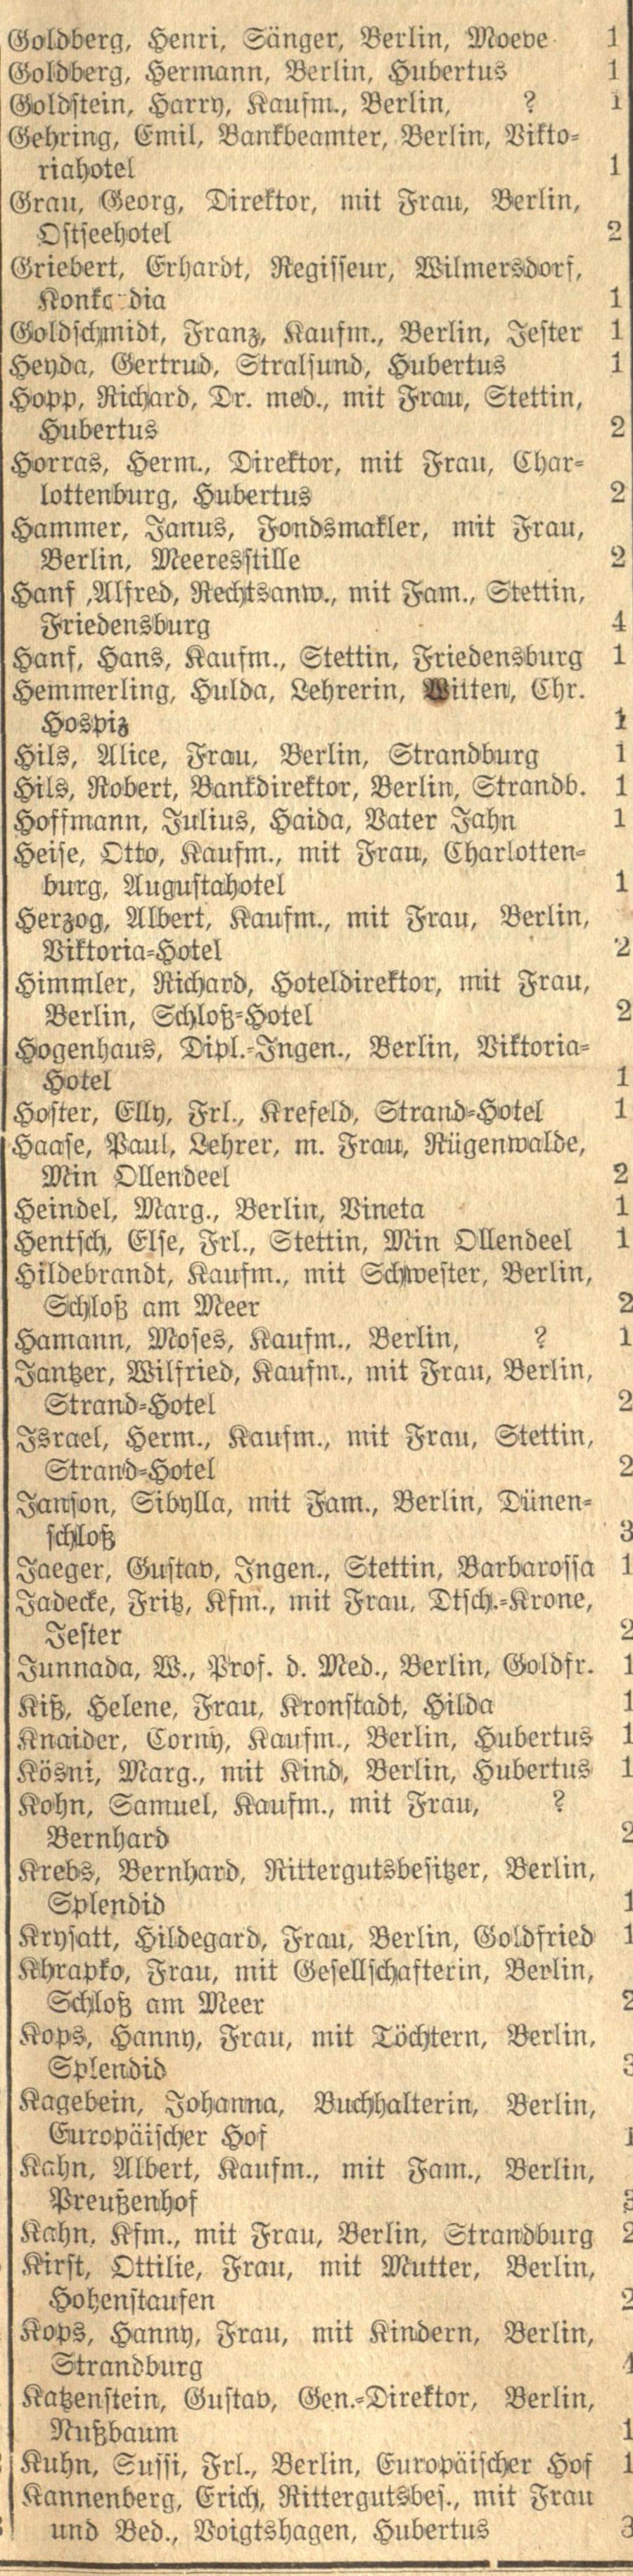Goldberg, Henri, Sänger, Berlin, Moeve | 1
Goldberg, Hermann, Berlin, Hubertus | 1
Goldstein, Harry, Kaufm., Berlin, ? | 1
Gehring, Emil, Bankbeamter, Berlin, Vikto=
riahotel | 1
Grau, Georg, Direktor, mit Frau, Berlin,
Ostseehotel | 2
Griebert, Erhardt, Regisseur, Wilmersdorf,
Konko dia | 1
Goldschmidt, Franz, Kaufm., Berlin, Jester | 1
Heyda, Gertrud, Stralsund, Hubertus | 1
Hopp, Richard, Dr. med., mit Frau, Stettin,
Hubertus | 2
Horras, Herm., Direktor, mit Frau, Char=
lottenburg, Hubertus | 2
Hammer, Janus, Fondsmakler, mit Frau,
Berlin, Meeresstille | 2
Hanf ,Alfred, Rechtsanw., mit Fam., Stettin,
Friedensburg | 4
Hanf, Hans, Kaufm., Stettin, Friedensburg | 1
Hemmerling, Hulda, Lehrerin, Witten, Chr.
Hospiz | 1
Hils, Alice, Frau, Berlin, Strandburg | 1
Hils, Robert, Bankdirektor, Berlin, Strandb. | 1
Hoffmann, Julius, Haida, Vater Jahn | 1
Heise, Otto, Kaufm., mit Frau, Charlotten=
burg, Augustahotel | 1
Herzog, Albert, Kaufm., mit Frau, Berlin,
Viktoria=Hotel | 2
Himmler, Richard, Hoteldirektor, mit Frau,
Berlin, Schloß=Hotel | 2
Hogenhaus, Dipl.=Ingen., Berlin, Viktoria=
Hotel | 1
Hoster, Elly, Frl., Krefeld, Strand=Hotel | 1
Haase, Paul, Lehrer, m. Frau, Rügenwalde,
Min Ollendeel | 2
Heindel, Marg., Berlin, Vineta | 1
Hentsch, Else, Frl., Stettin, Min Ollendeel | 1
Hildebrandt, Kaufm., mit Schwester, Berlin,
Schloß am Meer | 2
Hamman, Moses, Kaufm., Berlin, ? | 1
Jantzer, Wilfried, Kaufm., mit Frau, Berlin,
Strand=Hotel | 2
Israel, Herm., Kaufm., mit Frau, Stettin,
Strand=Hotel | 2
Janson, Sibylla, mit Fam., Berlin, Dünen=
schloß | 3
Jaeger, Gustav, Ingen., Stettin, Barbarossa | 1
Jadecke, Fritz, Kfm., mit Frau, Dtsch.=Krone,
Jester | 2
Junnada, W., Prof. d. Med., Berlin, Goldfr. | 1
Kiß, Helene, Frau, Kronstadt, Hilda | 1
Knaider, Corny, Kaufm., Berlin, Hubertus | 1
Kösni, Marg., mit Kind, Berlin, Hubertus | 1
Kohn, Samuel, Kaufm., mit Frau, ?
Bernhard | 2
Krebs, Bernhard, Rittergutsbesitzer, Berlin,
Splendid | 1
Krysatt, Hildegard, Frau, Berlin, Goldfried | 1
Khrapko, Frau, mit Gesellschafterin, Berlin,
Schloß am Meer | 2
Kops, Hanny, Frau, mit Töchtern, Berlin,
Splendid | 3
Kagebein, Johanna, Buchhalterin, Berlin,
Europäischer Hof | 1
Kahn, Albert, Kaufm., mit Fam., Berlin,
Preußenhof | 3
Kahn, Kfm., mit Frau, Berlin, Strandburg | 2
Kirst, Ottilie, Frau, mit Mutter, Berlin,
Hohenstaufen | 2
Kops, Hanny, Frau, mit Kindern, Berlin,
Strandburg | 4
Katzenstein, Gustav, Gen.=Direktor, Berlin,
Nußbaum | 1
Kuhn, Sussi, Frl., Berlin, Europäischer Hof | 1
Kannenberg, Erich, Rittergutsbes., mit Frau
und Bed., Voigtshagen, Hubertus | 3
